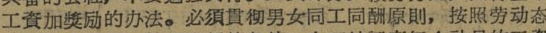工資加獎励的办法。必須貫彻男女同工同酬原則，按照劳动态
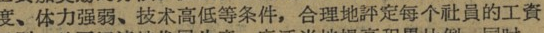度、体力强弱、技术高低等条件，合理地評定每个社員的工資
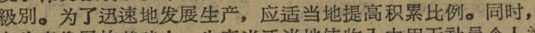級别。为了迅速地发展生产，应适当地提高积累比例。同时，
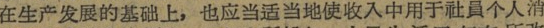在生产发展的基础上，也应当适当地使收入中用于社員个人消
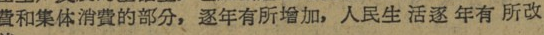費和集体消費的部分，逐年有所增加，人民生 活逐 年有 所改
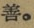善。
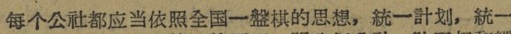每个公社都应当依照全国一盤棋的思想，統一計划，統一
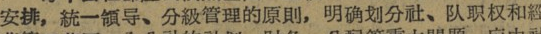安排，統一領导、分級管理的原則，明确划分社、队职权和經
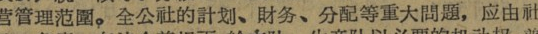营管理范圍。全公社的計划、財务、分配等重大問題，应由社
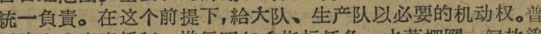統一負責。在这个前提下，給大队、生产队以必要的机动权。普
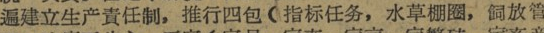遍建立生产責任制，推行四包（指标任务，水草棚圈，飼放管
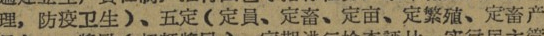理，防疫卫生）、五定（定員、定畜、定亩、定繁殖、定畜产
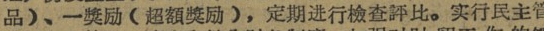品）、一獎励（超額獎励），定期进行檢查評比。实行民主管
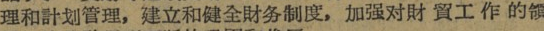理和計划管理，建立和健全財务制度，加强对財 贸工 作 的領
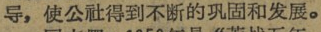导，使公社得到不断的巩固和发展。
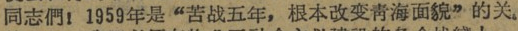同志們！1959年是“苦战五年，根本改变靑海面貌”的关
